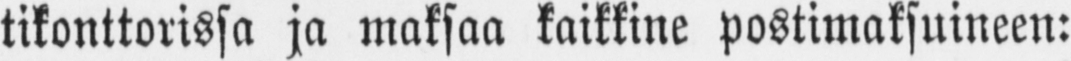tikonttorissa ja maksaa kaikkine postimaksuineen:
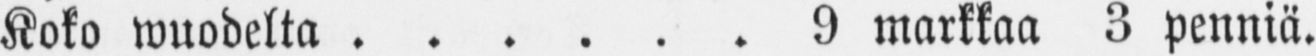Koko wuodelta 9 markkaa 3 penniä.
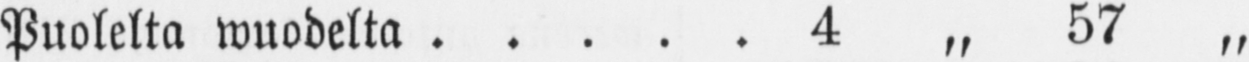Puolelta wuodelta 4 „ 57 „
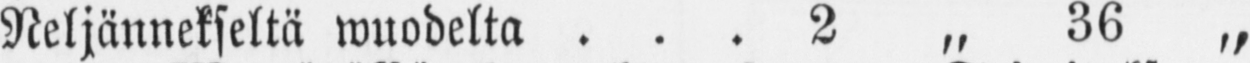Neljännekseltä wuodelta 2 „ 36 „
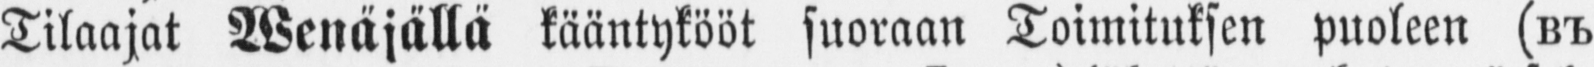Tilaajat Wenäjällä kääntykööt suoraan Toimituksen puoleen (B Ъ .
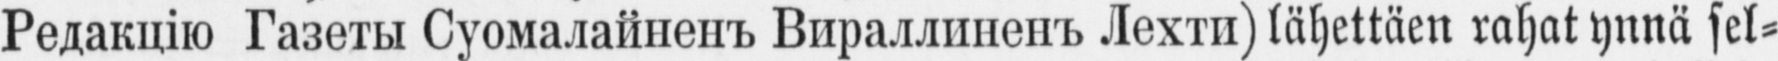Pe д a к ц i ю Гa з e г ъ Cyo мa л a й н e н Ъ Bиpaллинeн Ъ Лexги) lähettäen rahat ynnä sel-
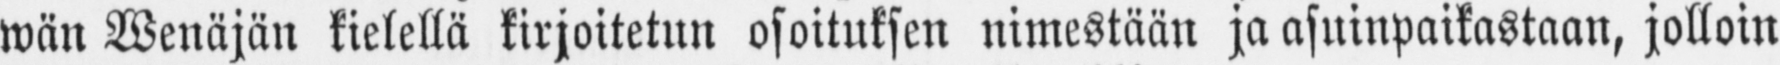wän Wenäjän kielellä kirjoitetun osoituksen nimestään ja asuinpaikastaan, jolloin
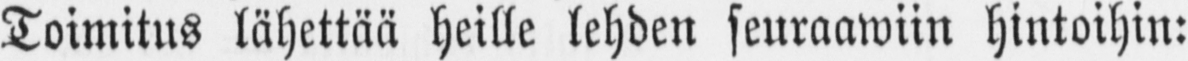Toimitus lähettää heille lehden seuraawiin hintoihin:
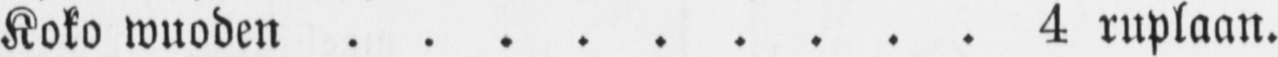Koko wuoden 4 ruplaan.
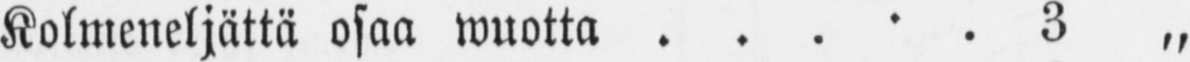Kolmeneljättä osaa wuotta 3 „
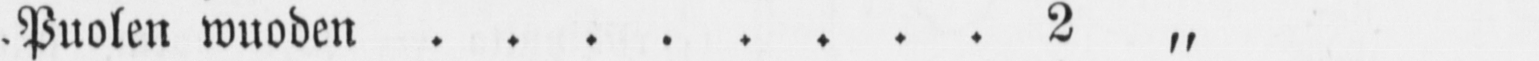Puolen wuoden 2 „
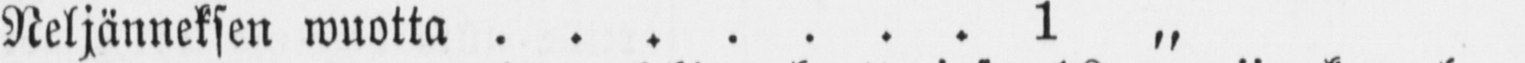Neljänneksen wuotta 1 „
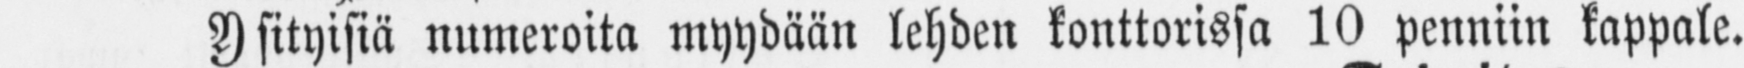Y sityisiä numeroita myydään lehden konttorissa 10 penniin kappale.
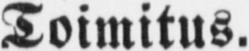Toimitus.
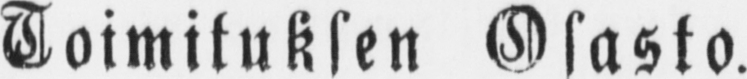Toimituksen Osasto.
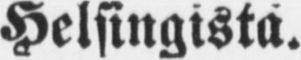Helsingista.
